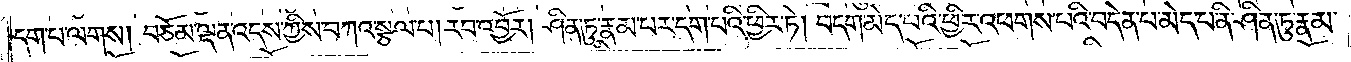དག་པ་ལགས། བཅོམ་ལྡན་འདས་ཀྱིས་བཀའ་སྩལ་པ། རབ་འབྱོར། ཤིན་ཏུ་རྣམ་པར་དག་པའི་ཕྱིར་ཏེ། བདག་མེད་པའི་ཕྱིར་འཕགས་པའི་བདེན་པ་མེད་པ་ནི་ཤིན་ཏུ་རྣམ་
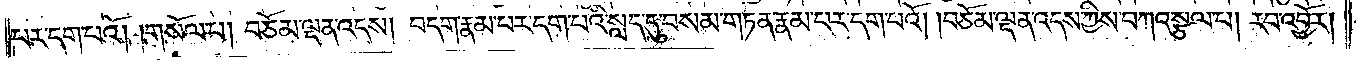པར་དག་པའོ། །གསོལ་པ། བཅོམ་ལྡན་འདས། བདག་རྣམ་པར་དག་པའི་སླད་དུ་བསམ་གཏན་རྣམ་པར་དག་པའོ། །བཅོམ་ལྡན་འདས་ཀྱིས་བཀའ་སྩལ་པ། རབ་འབྱོར།
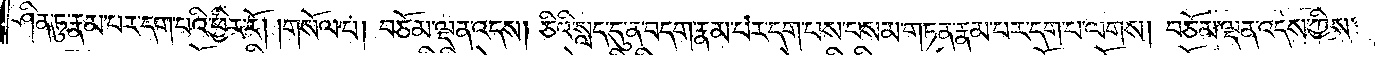ཤིན་ཏུ་རྣམ་པར་དག་པའི་ཕྱིར་རོ། །གསོལ་པ། བཅོམ་ལྡན་འདས། ཅིའི་སླད་དུ་ན་བདག་རྣམ་པར་དག་པས་བསམ་གཏན་རྣམ་པར་དག་པ་ལགས། བཅོམ་ལྡན་འདས་ཀྱིས་
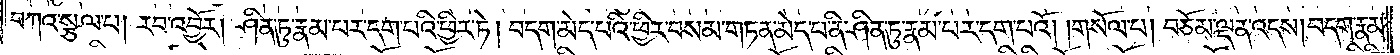བཀའ་སྩལ་པ། རབ་འབྱོར། ཤིན་ཏུ་རྣམ་པར་དག་པའི་ཕྱིར་ཏེ། བདག་མེད་པའི་ཕྱིར་བསམ་གཏན་མེད་པ་ནི་ཤིན་ཏུ་རྣམ་པར་དག་པའོ། །གསོལ་པ། བཅོམ་ལྡན་འདས། བདག་རྣམ་
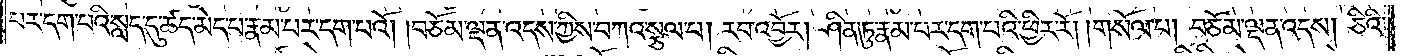པར་དག་པའི་སླད་དུ་ཚད་མེད་པ་རྣམ་པར་དག་པའོ། །བཅོམ་ལྡན་འདས་ཀྱིས་བཀའ་སྩལ་པ། རབ་འབྱོར། ཤིན་ཏུ་རྣམ་པར་དག་པའི་ཕྱིར་རོ། །གསོལ་པ། བཅོམ་ལྡན་འདས། ཅིའི་
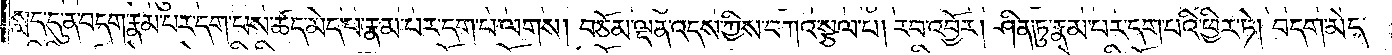སླད་དུ་ན་བདག་རྣམ་པར་དག་པས་ཚད་མེད་པ་རྣམ་པར་དག་པ་ལགས། བཅོམ་ལྡན་འདས་ཀྱིས་བཀའ་སྩལ་པ། རབ་འབྱོར། ཤིན་ཏུ་རྣམ་པར་དག་པའི་ཕྱིར་ཏེ། བདག་མེད་
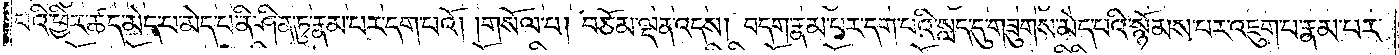པའི་ཕྱིར་ཚད་མེད་པ་མེད་པ་ནི་ཤིན་ཏུ་རྣམ་པར་དག་པའོ། །གསོལ་པ། བཅོམ་ལྡན་འདས། བདག་རྣམ་པར་དག་པའི་སླད་དུ་གཟུགས་མེད་པའི་སྙོམས་པར་འཇུག་པ་རྣམ་པར་
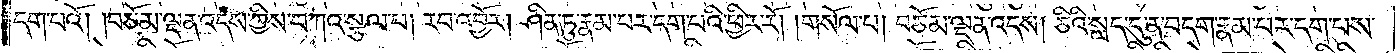དག་པའོ། །བཅོམ་ལྡན་འདས་ཀྱིས་བཀའ་སྩལ་པ། རབ་འབྱོར། ཤིན་ཏུ་རྣམ་པར་དག་པའི་ཕྱིར་རོ། །གསོལ་པ། བཅོམ་ལྡན་འདས། ཅིའི་སླད་དུ་ན་བདག་རྣམ་པར་དག་པས་
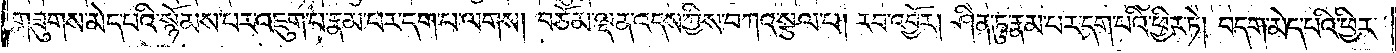གཟུགས་མེད་པའི་སྙོམས་པར་འཇུག་པ་རྣམ་པར་དག་པ་ལགས། བཅོམ་ལྡན་འདས་ཀྱིས་བཀའ་སྩལ་པ། རབ་འབྱོར། ཤིན་ཏུ་རྣམ་པར་དག་པའི་ཕྱིར་ཏེ། བདག་མེད་པའི་ཕྱིར་
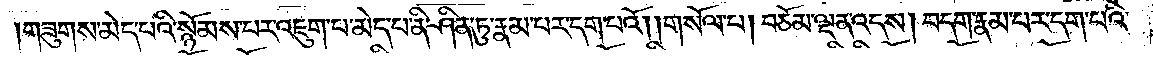གཟུགས་མེད་པའི་སྙོམས་པར་འཇུག་པ་མེད་པ་ནི་ཤིན་ཏུ་རྣམ་པར་དག་པའོ། །གསོལ་པ། བཅོམ་ལྡན་འདས། བདག་རྣམ་པར་དག་པའི་
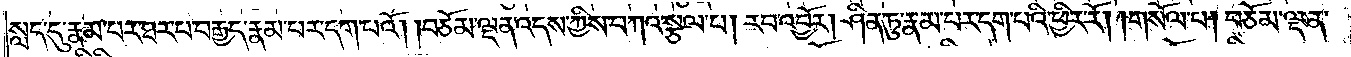སླད་དུ་རྣམ་པར་ཐར་པ་བརྒྱད་རྣམ་པར་དག་པའོ། །བཅོམ་ལྡན་འདས་ཀྱིས་བཀའ་སྩལ་པ། རབ་འབྱོར། ཤིན་ཏུ་རྣམ་པར་དག་པའི་ཕྱིར་རོ། །གསོལ་པ། བཅོམ་ལྡན་
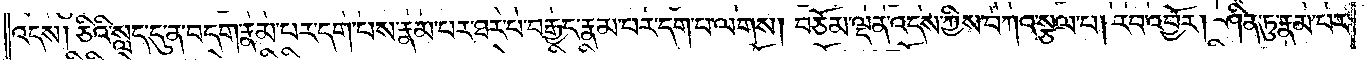འདས། ཅིའི་སླད་དུ་ན་བདག་རྣམ་པར་དག་པས་རྣམ་པར་ཐར་པ་བརྒྱད་རྣམ་པར་དག་པ་ལགས། བཅོམ་ལྡན་འདས་ཀྱིས་བཀའ་སྩལ་པ། རབ་འབྱོར། ཤིན་ཏུ་རྣམ་པར་
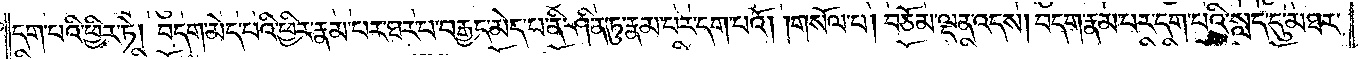དག་པའི་ཕྱིར་ཏེ། བདག་མེད་པའི་ཕྱིར་རྣམ་པར་ཐར་པ་བརྒྱད་མེད་པ་ནི་ཤིན་ཏུ་རྣམ་པར་དག་པའོ། །གསོལ་པ། བཅོམ་ལྡན་འདས། བདག་རྣམ་པར་དག་པའི་སླད་དུ་མཐར་
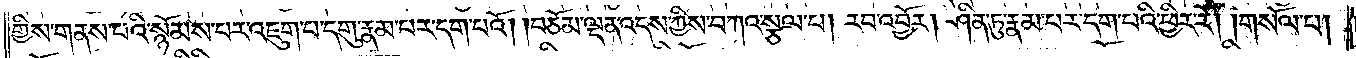གྱིས་གནས་པའི་སྙོམས་པར་འཇུག་པ་དགུ་རྣམ་པར་དག་པའོ། །བཅོམ་ལྡན་འདས་ཀྱིས་བཀའ་སྩལ་པ། རབ་འབྱོར། ཤིན་ཏུ་རྣམ་པར་དག་པའི་ཕྱིར་རོ། །གསོལ་པ།
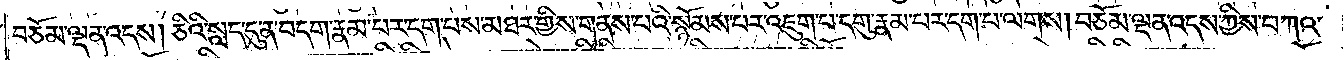བཅོམ་ལྡན་འདས། ཅིའི་སླད་དུ་ན་བདག་རྣམ་པར་དག་པས་མཐར་གྱིས་གནས་པའི་སྙོམས་པར་འཇུག་པ་དགུ་རྣམ་པར་དག་པ་ལགས། བཅོམ་ལྡན་འདས་ཀྱིས་བཀའ་
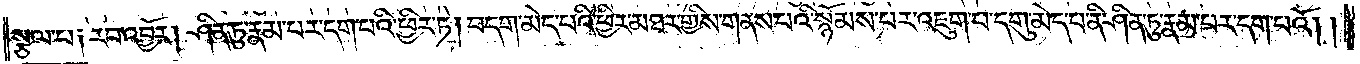སྩལ་པ༑ རབ་འབྱོར། ཤིན་ཏུ་རྣམ་པར་དག་པའི་ཕྱིར་ཏེ། བདག་མེད་པའི་ཕྱིར་མཐར་གྱིས་གནས་པའི་སྙོམས་པར་འཇུག་པ་དགུ་མེད་པ་ནི་ཤིན་ཏུ་རྣམ་པར་དག་པའོ། །
